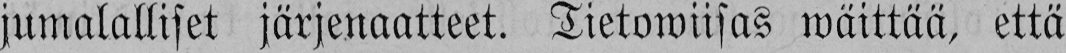jumalalliset järjenaatteet. Tietowiisas wäittää, että
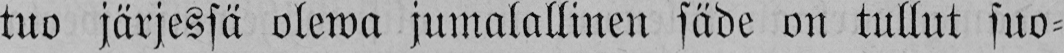tuo järjessä olewa jumalallinen säde on tullut suo-
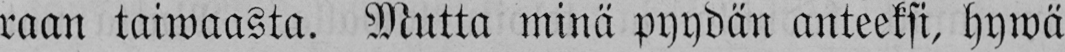raan taiwaasta. Mutta minä pyydän anteeksi, hywä
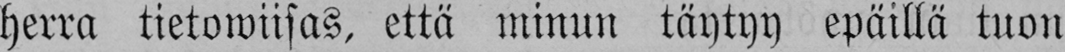herra tietowiisas. että minun täytyy epäillä tuon
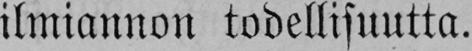ilmiannon todellisuutta.
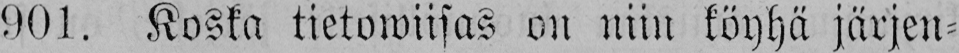901. Koska tietowiisas on niin köyhä järjen-
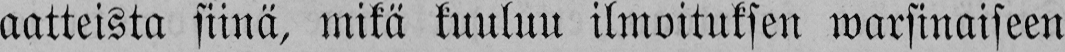aatteista siinä, mikä kuulun ilmoituksen warsinaiseen
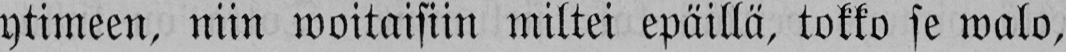ytimeen, niin woitaisiin miltei epäillä, tokko se walo,
